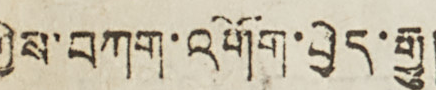ཀྱིས་བཀག་འགོག་བྱེད་རྒྱུ།
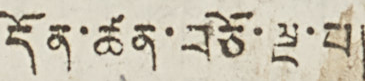དོན་ཚན་བཅོ་ལྔ་པ།
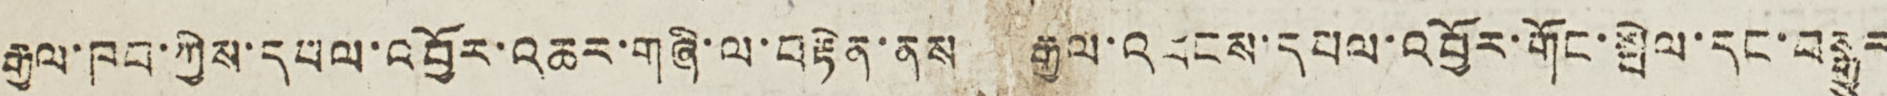རྒྱལ་ཁབ་ཀྱིས་དཔལ་འབྱོར་འཆར་གཞི་ལ་བརྟེན་ནས རྒྱལ་འབངས་དཔལ་འབྱོར་གོང་སྤེལ་དང་བསྒྱུར
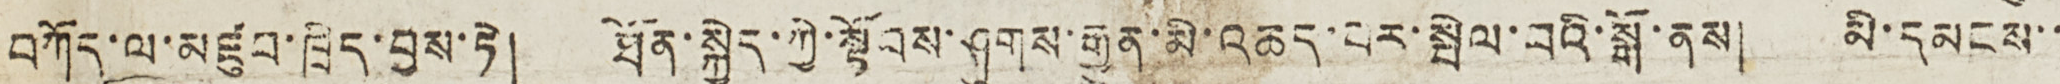བཀོད་ལ་མཛུབ་ཁྲིད་བྱས་ཏེ། ཐོན་སྐྱེད་ཀྱི་སྟོབས་ཤུགས་རྒྱུན་མི་འཆད་པར་སྤེལ་བའི་སྒོ་ནས། མི་དམངས་་
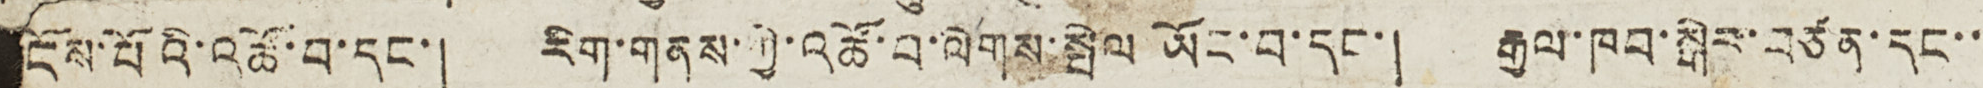དངོས་པོའི་འཚོ་བ་དང་། རིག་གནས་ཀྱི་འཚོ་བ་ལེགས་སྤེལ ཡོང་བ་དང་། རྒྱལ་ཁབ་སྒེར་བཙན་དང་་་
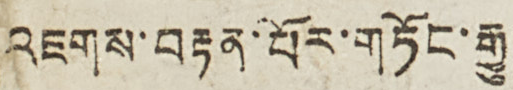འཇགས་བརྟན་པོར་གཏོང་རྒྱུ།
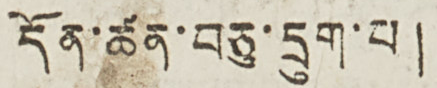དོན་ཚན་བཅུ་དྲུག་པ།
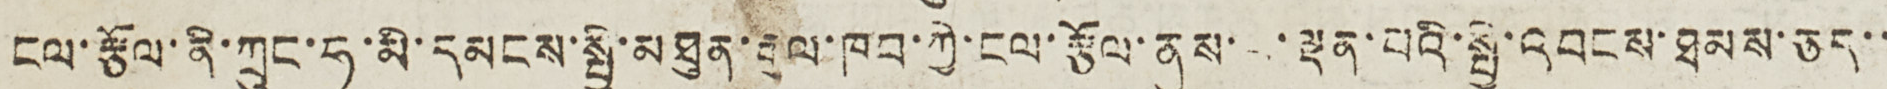ངལ་རྩོལ་ནི་ཀྲུང་ཧྭ་མི་དམངས་སྤྱི་མཐུན་རྒྱལ་ཁབ་ཀྱི་ངལ་རྩོལ་ནུས་ ་ལྡན་པའི་སྤྱི་འབངས་ཐམས་ཅད་་
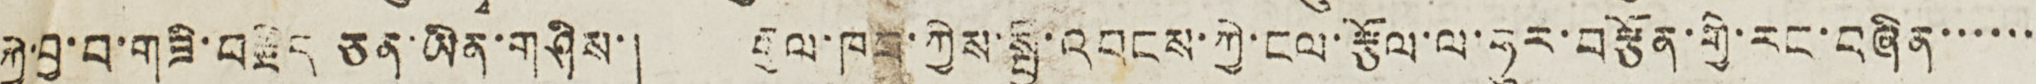ཀྱི་བྱ་བ་གཟི་བརྗིད ཅན་ཡིན་གཤིས་། རྒྱལ་ཁབ་ཀྱིས་སྤྱི་འབངས་ཀྱི་ངལ་རྩོལ་ལ་ཧུར་བརྩོན་གྱི་རང་བཞིན་་་་་་
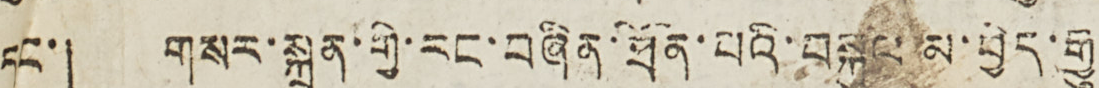དང་། གསར་སྐྲུན་གྱི་རང་བཞིན་ཐོན་པའི་བསྐུལ་མ་བྱེད་རྒྱུ།
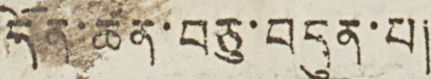དོན་ཚན་བཅུ་བདུན་པ།
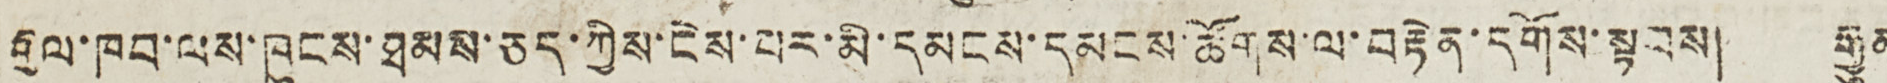རྒྱལ་ཁབ་ལས་ཁུང་ཐམས་ཅད་ཀྱིས་ངེས་པར་མི་དམངས་དམངས་ཚོགས་ལ་བརྟེན་དགོས་སྟབས། རྒྱུན
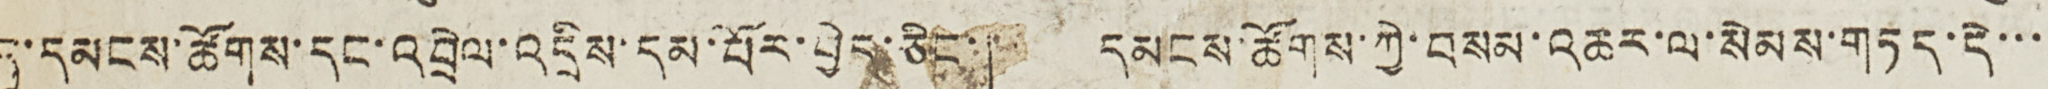དུ་དམངས་ཚོགས་དང་འབྲེལ་འདྲིས་དམ་པོར་བྱེད་ཅིང་། དམངས་ཚོགས་ཀྱི་བསམ་འཆར་ལ་སེམས་གཏད་དེ་་་
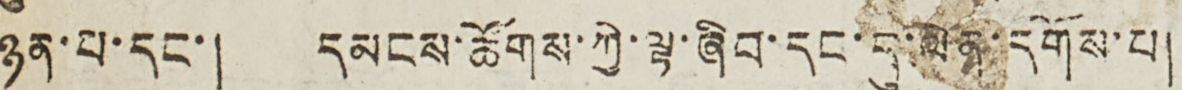ཉན་པ་དང་། དམངས་ཚོགས་ཀྱི་ལྟ་ཞིབ་དང་དུ་ལེན་དགོས་པ།
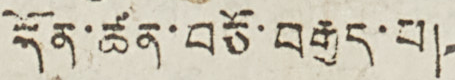དོན་ཚན་བཅོ་བརྒྱད་པ།
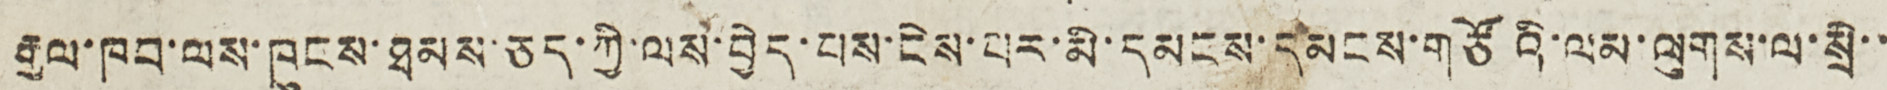རྒྱལ་ཁབ་ལས་ཁུངས་ཐམས་ཅད་ཀྱི་ལས་བྱེད་པས་ངེས་པར་མི་དམངས་དམངས་གཙོའི་ལམ་ལུགས་ལ་སྲེ་་
